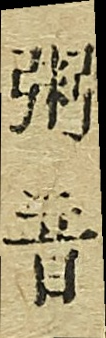粥
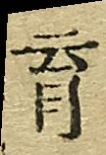音育
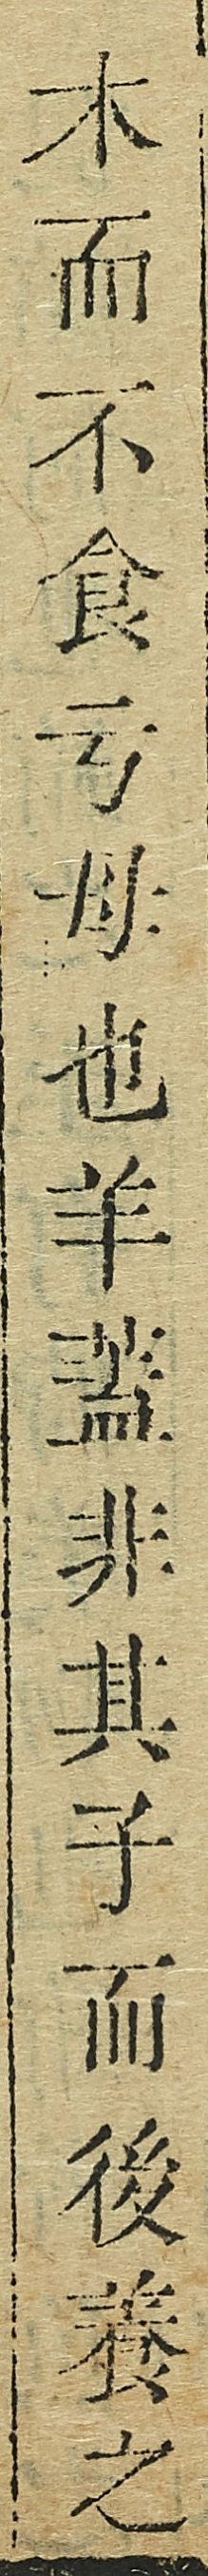木而不食亏母也羊蓋非其子而後養之
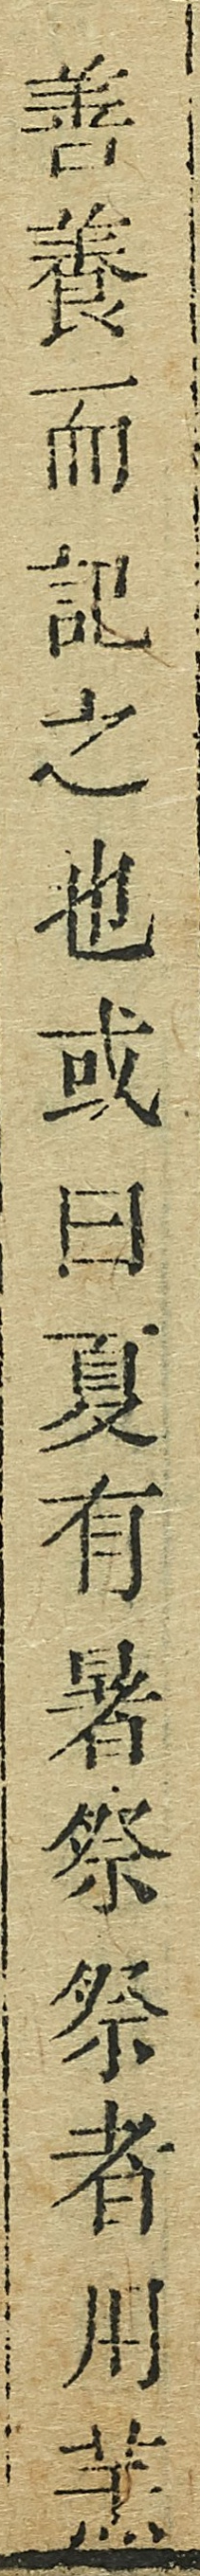善養而記之也或曰夏有暑祭祭者用羔
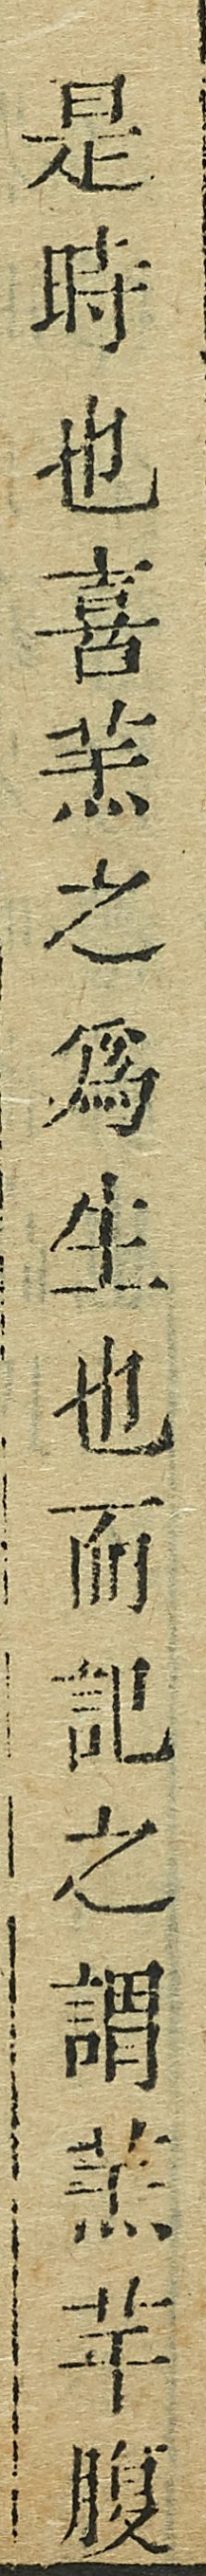是時也喜羔？之為生也而記之謂羔芉腹
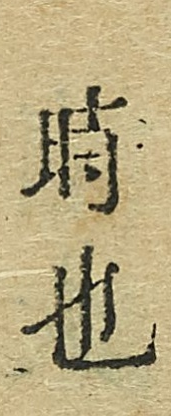時也
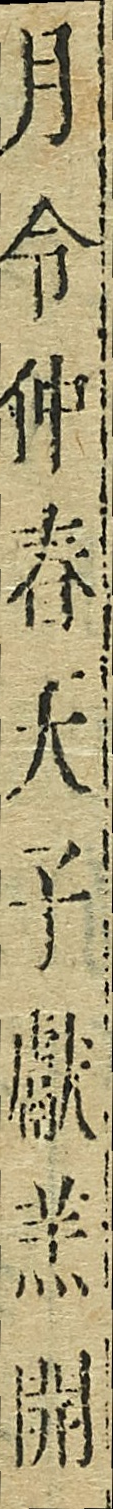月令仲春天子獻羔開
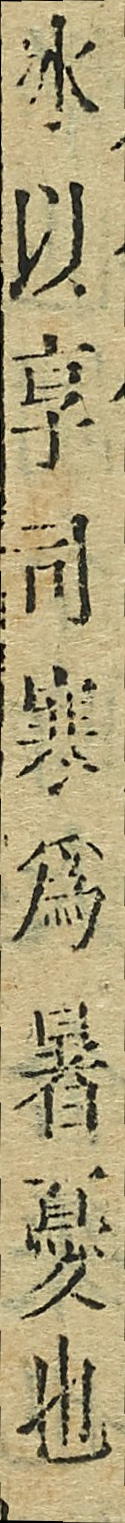冰以享司寒為暑憂也
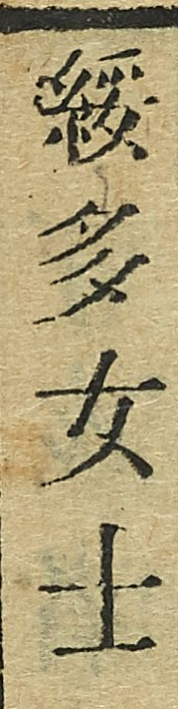綏多女士
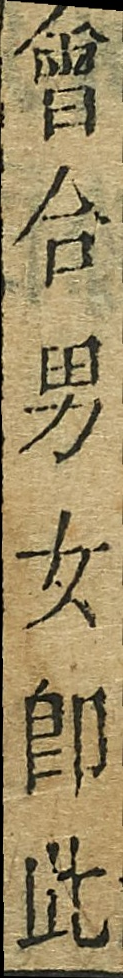會合男女即此
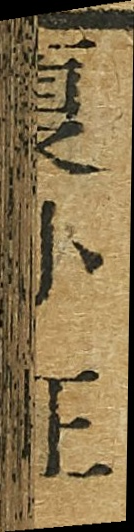夏小正
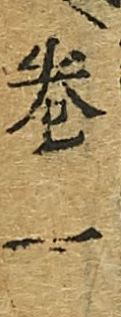卷一
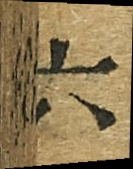六
